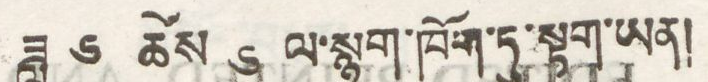ཟླ ༦ ཚེས ༦ ལ་སྙུག་ཁོག་ཏུ་སྟག་ཡན།
